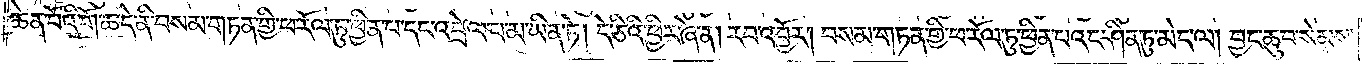ཆེན་པོའི་གོ་ཆ་དེ་ནི་བསམ་གཏན་གྱི་ཕ་རོལ་ཏུ་ཕྱིན་པ་དང་འབྲེལ་པ་མ་ཡིན་ཏེ། དེ་ཅིའི་ཕྱིར་ཞེ་ན། རབ་འབྱོར། བསམ་གཏན་གྱི་ཕ་རོལ་ཏུ་ཕྱིན་པའང་ཤིན་ཏུ་མེད་ལ། བྱང་ཆུབ་སེམས་
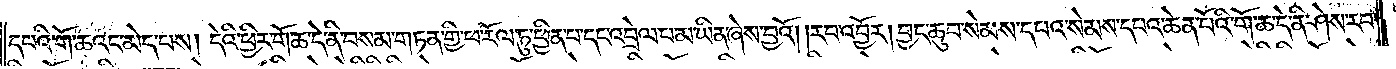དཔའི་གོ་ཆའང་མེད་པས། དེའི་ཕྱིར་གོ་ཆ་དེ་ནི་བསམ་གཏན་གྱི་ཕ་རོལ་ཏུ་ཕྱིན་པ་དང་འབྲེལ་པ་མ་ཡིན་ཞེས་བྱའོ། །རབ་འབྱོར། བྱང་ཆུབ་སེམས་དཔའ་སེམས་དཔའ་ཆེན་པོའི་གོ་ཆ་དེ་ནི་ཤེས་རབ་
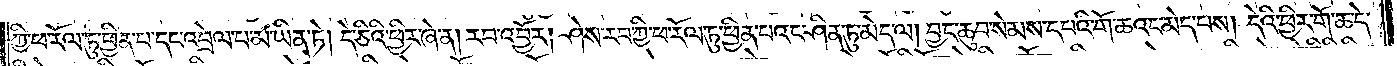ཀྱི་ཕ་རོལ་ཏུ་ཕྱིན་པ་དང་འབྲེལ་པ་མ་ཡིན་ཏེ། དེ་ཅིའི་ཕྱིར་ཞེ་ན། རབ་འབྱོར། ཤེས་རབ་ཀྱི་ཕ་རོལ་ཏུ་ཕྱིན་པའང་ཤིན་ཏུ་མེད་ལ། བྱང་ཆུབ་སེམས་དཔའི་གོ་ཆའང་མེད་པས། དེའི་ཕྱིར་གོ་ཆ་དེ་
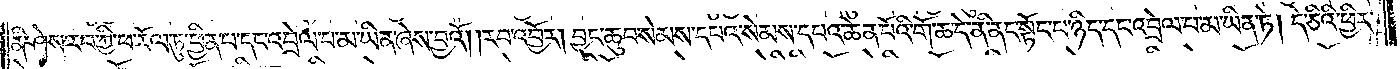ནི་ཤེས་རབ་ཀྱི་ཕ་རོལ་ཏུ་ཕྱིན་པ་དང་འབྲེལ་པ་མ་ཡིན་ཞེས་བྱའོ། །རབ་འབྱོར། བྱང་ཆུབ་སེམས་དཔའ་སེམས་དཔའ་ཆེན་པོའི་གོ་ཆ་དེ་ནི་ནང་སྟོང་པ་ཉིད་དང་འབྲེལ་པ་མ་ཡིན་ཏེ། དེ་ཅིའི་ཕྱིར་
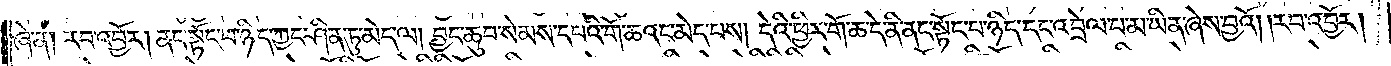ཞེ་ན། རབ་འབྱོར། ནང་སྟོང་པ་ཉིད་ཀྱང་ཤིན་ཏུ་མེད་ལ། བྱང་ཆུབ་སེམས་དཔའི་གོ་ཆའང་མེད་པས། དེའི་ཕྱིར་གོ་ཆ་དེ་ནི་ནང་སྟོང་པ་ཉིད་དང་འབྲེལ་པ་མ་ཡིན་ཞེས་བྱའོ། །རབ་འབྱོར།
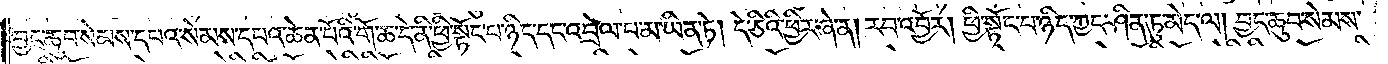བྱང་ཆུབ་སེམས་དཔའ་སེམས་དཔའ་ཆེན་པོའི་གོ་ཆ་དེ་ནི་ཕྱི་སྟོང་པ་ཉིད་དང་འབྲེལ་པ་མ་ཡིན་ཏེ། དེ་ཅིའི་ཕྱིར་ཞེ་ན། རབ་འབྱོར། ཕྱི་སྟོང་པ་ཉིད་ཀྱང་ཤིན་ཏུ་མེད་ལ། བྱང་ཆུབ་སེམས་
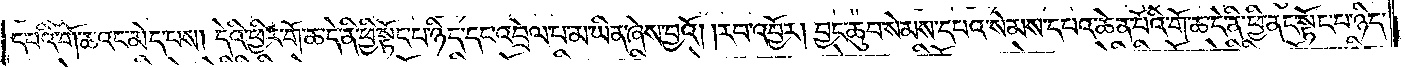དཔའི་གོ་ཆའང་མེད་པས། དེའི་ཕྱིར་གོ་ཆ་དེ་ནི་ཕྱི་སྟོང་པ་ཉིད་དང་འབྲེལ་པ་མ་ཡིན་ཞེས་བྱའོ། །རབ་འབྱོར། བྱང་ཆུབ་སེམས་དཔའ་སེམས་དཔའ་ཆེན་པོའི་གོ་ཆ་དེ་ནི་ཕྱི་ནང་སྟོང་པ་ཉིད་
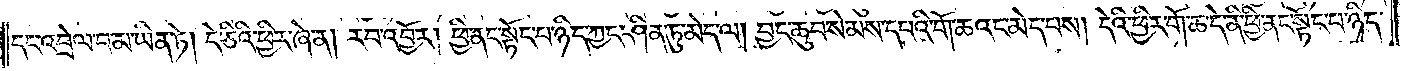དང་འབྲེལ་པ་མ་ཡིན་ཏེ། དེ་ཅིའི་ཕྱིར་ཞེ་ན། རབ་འབྱོར། ཕྱི་ནང་སྟོང་པ་ཉིད་ཀྱང་ཤིན་ཏུ་མེད་ལ། བྱང་ཆུབ་སེམས་དཔའི་གོ་ཆའང་མེད་པས། དེའི་ཕྱིར་གོ་ཆ་དེ་ནི་ཕྱི་ནང་སྟོང་པ་ཉིད་
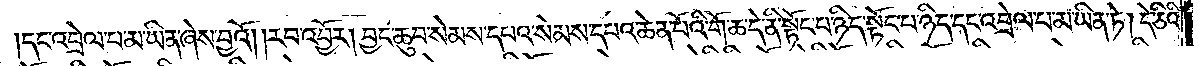དང་འབྲེལ་པ་མ་ཡིན་ཞེས་བྱའོ། །རབ་འབྱོར། བྱང་ཆུབ་སེམས་དཔའ་སེམས་དཔའ་ཆེན་པོའི་གོ་ཆ་དེ་ནི་སྟོང་པ་ཉིད་སྟོང་པ་ཉིད་དང་འབྲེལ་པ་མ་ཡིན་ཏེ། དེ་ཅིའི་
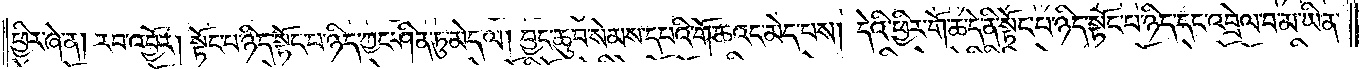ཕྱིར་ཞེ་ན། རབ་འབྱོར། སྟོང་པ་ཉིད་སྟོང་པ་ཉིད་ཀྱང་ཤིན་ཏུ་མེད་ལ། བྱང་ཆུབ་སེམས་དཔའི་གོ་ཆའང་མེད་པས། དེའི་ཕྱིར་གོ་ཆ་དེ་ནི་སྟོང་པ་ཉིད་སྟོང་པ་ཉིད་དང་འབྲེལ་པ་མ་ཡིན་
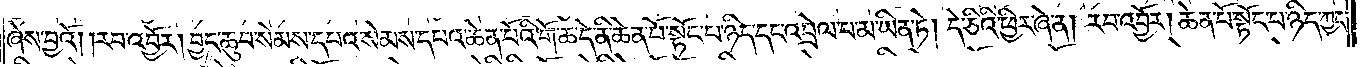ཞེས་བྱའོ། །རབ་འབྱོར། བྱང་ཆུབ་སེམས་དཔའ་སེམས་དཔའ་ཆེན་པོའི་གོ་ཆ་དེ་ནི་ཆེན་པོ་སྟོང་པ་ཉིད་དང་འབྲེལ་པ་མ་ཡིན་ཏེ། དེ་ཅིའི་ཕྱིར་ཞེ་ན། རབ་འབྱོར། ཆེན་པོ་སྟོང་པ་ཉིད་ཀྱང་
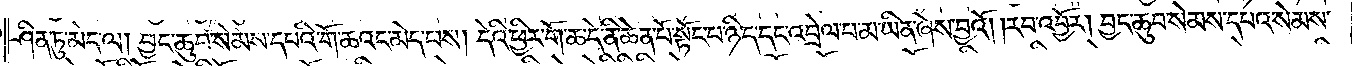ཤིན་ཏུ་མེད་ལ། བྱང་ཆུབ་སེམས་དཔའི་གོ་ཆའང་མེད་པས། དེའི་ཕྱིར་གོ་ཆ་དེ་ནི་ནང་སྟོང་པ་ཉིད་དང་འབྲེལ་པ་མ་ཡིན་ཞེས་བྱའོ། །རབ་འབྱོར། བྱང་ཆུབ་སེམས་དཔའ་སེམས་
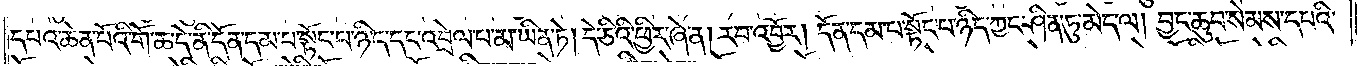དཔའ་ཆེན་པོའི་གོ་ཆ་དེ་ནི་དོན་དམ་པ་སྟོང་པ་ཉིད་དང་འབྲེལ་པ་མ་ཡིན་ཏེ། དེ་ཅིའི་ཕྱིར་ཞེ་ན། རབ་འབྱོར། དོན་དམ་པ་སྟོང་པ་ཉིད་ཀྱང་ཤིན་ཏུ་མེད་ལ། བྱང་ཆུབ་སེམས་དཔའི་
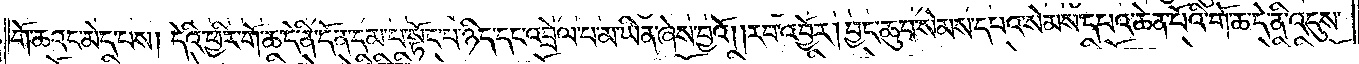གོ་ཆའང་མེད་པས། དེའི་ཕྱིར་གོ་ཆ་དེ་ནི་དོན་དམ་པ་སྟོང་པ་ཉིད་དང་འབྲེལ་པ་མ་ཡིན་ཞེས་བྱའོ། །རབ་འབྱོར། བྱང་ཆུབ་སེམས་དཔའ་སེམས་དཔའ་ཆེན་པོའི་གོ་ཆ་དེ་ནི་འདུས་
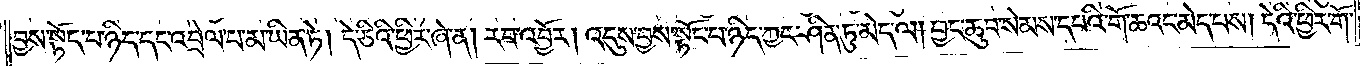བྱས་སྟོང་པ་ཉིད་དང་འབྲེལ་པ་མ་ཡིན་ཏེ། དེ་ཅིའི་ཕྱིར་ཞེ་ན། རབ་འབྱོར། འདུས་བྱས་སྟོང་པ་ཉིད་ཀྱང་ཤིན་ཏུ་མེད་ལ། བྱང་ཆུབ་སེམས་དཔའི་གོ་ཆའང་མེད་པས། དེའི་ཕྱིར་གོ་
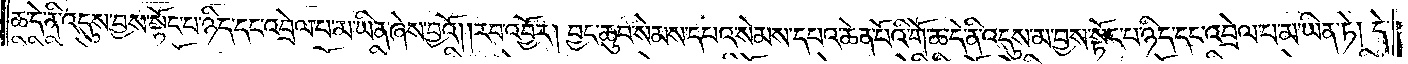ཆ་དེ་ནི་འདུས་བྱས་སྟོང་པ་ཉིད་དང་འབྲེལ་པ་མ་ཡིན་ཞེས་བྱའོ། །རབ་འབྱོར། བྱང་ཆུབ་སེམས་དཔའ་སེམས་དཔའ་ཆེན་པོའི་གོ་ཆ་དེ་ནི་འདུས་མ་བྱས་སྟོང་པ་ཉིད་དང་འབྲེལ་པ་མ་ཡིན་ཏེ། དེ་
